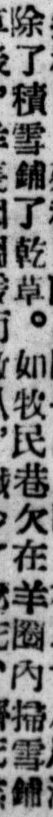除了積雪鋪了乾草。如牧民巷欠在羊圈內掃雪鋪
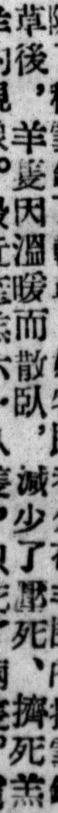草後，羊隻因溫暖而散臥，減少了壓死、擠死羔
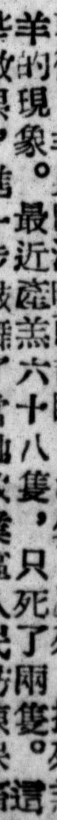羊的現象。最近產羔六十八隻，只死了兩隻。這
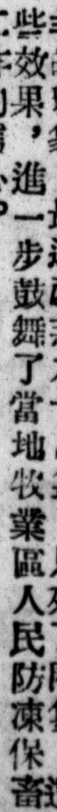些效果，進一步鼓舞了當地牧業區人民防凍保畜
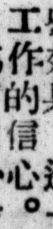工作的信心。
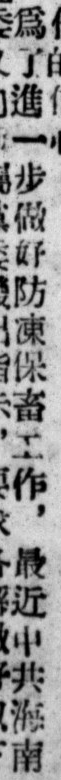爲了進一步做好防凍保畜工作，最近中共海南
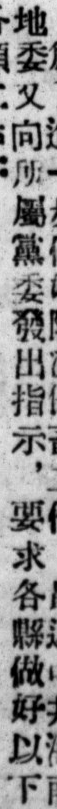地委又向所屬黨委發出指示，要求各縣做好以下
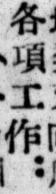各項工作：
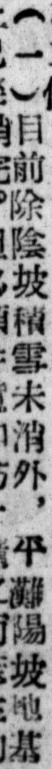（一）目前除陰坡積雪未消外，平灘陽坡也基
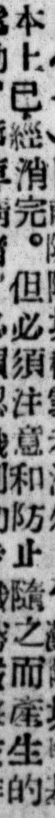本上已經消完。但必須注意和防止隨之而產生的
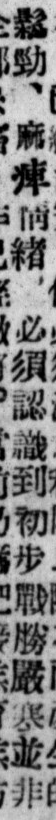鬆動、麻痹情緒，必須認識到初步戰勝嚴寒並非
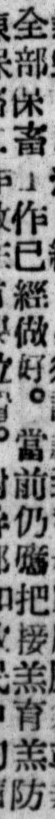全部保畜工作已經做好。當前仍應把接羔育羔防
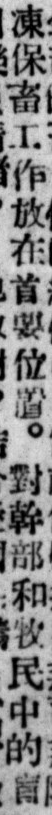凍保畜工作放在首要位置。對幹部和牧民中的盲
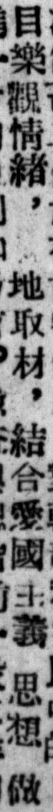目樂觀情緒，就地取材，結合愛國主義 思想 做
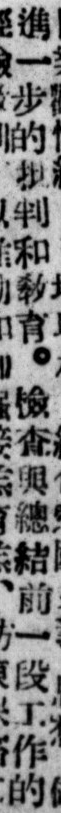進一步的批判和敎育。檢查與總結前一段工作的
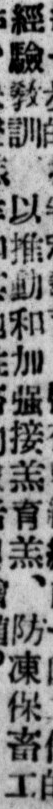經驗敎訓，以推動和加強接羔育羔、防凍保畜工
